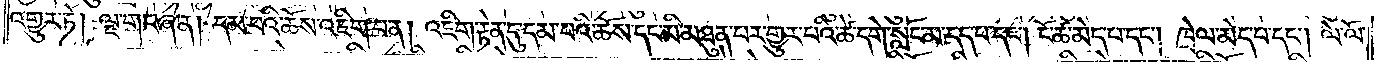འགྱུར་ཏེ། ལྔ་གང་ཞེ་ན། དམ་པའི་ཆོས་འཇིག་པ་ན། འཇིག་རྟེན་དུ་དམ་པའི་ཆོས་དང་མི་མཐུན་པར་གྱུར་པའི་ཚེ་དགེ་སློང་མ་དད་པ་དང༌། ངོ་ཚ་མེད་པ་དང༌། ཁྲེལ་མེད་པ་དང༌། ལེ་ལོ་
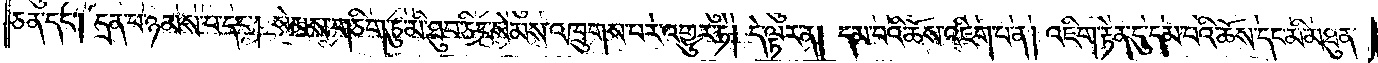ཅན་དང༌། དྲན་པ་ཉམས་པ་དང༌། སེམས་གཅིག་ཏུ་མི་ཐུབ་ཅིང་སེམས་འཁྲུགས་པར་འགྱུར་ཏེ། དེ་ལྟར་ན། དམ་པའི་ཆོས་འཇིག་པ་ན། འཇིག་རྟེན་དུ་དམ་པའི་ཆོས་དང་མི་མཐུན་
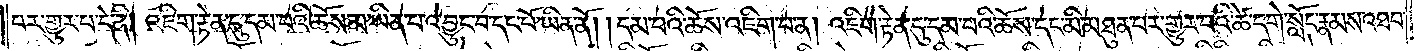བར་གྱུར་པ་དེ་ནི། འཇིག་རྟེན་དུ་དམ་པའི་ཆོས་མ་ཡིན་པ་འབྱུང་བ་དང་པོ་ཡིན་ནོ། །དམ་པའི་ཆོས་འཇིག་པ་ན། འཇིག་རྟེན་དུ་དམ་པའི་ཆོས་དང་མི་མཐུན་པར་གྱུར་པའི་ཚེ་དགེ་སློང་རྣམས་འཐབ་
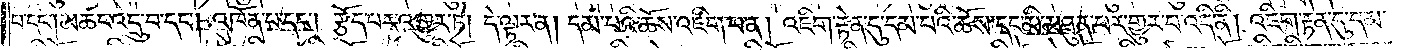པ་དང༌། མཚང་འདྲུ་བ་དང༌། འཁོན་པ་དང༌། རྩོད་པར་འགྱུར་ཏེ། དེ་ལྟར་ན། དམ་པའི་ཆོས་འཇིག་པ་ན། འཇིག་རྟེན་དུ་དམ་པའི་ཆོས་དང་མི་མཐུན་པར་གྱུར་བ་འདི་ནི། འཇིག་རྟེན་དུ་དམ་
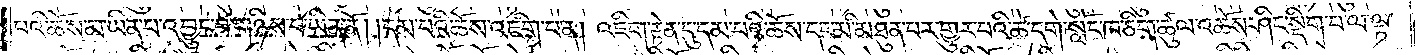པའི་ཆོས་མ་ཡིན་པ་འབྱུང་བ་གཉིས་པ་ཡིན་ནོ། །དམ་པའི་ཆོས་འཇིག་པ་ན། འཇིག་རྟེན་དུ་དམ་པའི་ཆོས་དང་མི་མཐུན་པར་གྱུར་པའི་ཚེ་དགེ་སློང་ཁ་ཅིག་ཚུལ་འཆོས་ཤིང་སྡིག་པ་ལ་ལྟ་
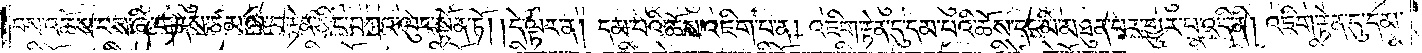བས་འཆོས་པས་ཞི་གནས་ཙམ་ལ་བརྟེན་ཅིང་བཀའ་ལུང་སྟོན་ཏོ། །དེ་ལྟར་ན། དམ་པའི་ཆོས་འཇིག་པ་ན། འཇིག་རྟེན་དུ་དམ་པའི་ཆོས་དང་མི་མཐུན་པར་གྱུར་པ་འདི་ནི། འཇིག་རྟེན་དུ་དམ་
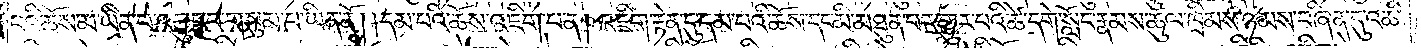པའི་ཆོས་མ་ཡིན་པ་འབྱུང་བ་གསུམ་པ་ཡིན་ནོ། །དམ་པའི་ཆོས་འཇིག་པ་ན། འཇིག་རྟེན་དུ་དམ་པའི་ཆོས་དང་མི་མཐུན་པར་གྱུར་པའི་ཚེ་དགེ་སློང་རྣམས་ཚུལ་ཁྲིམས་ཉམས་བཞིན་དུ་འཆི་
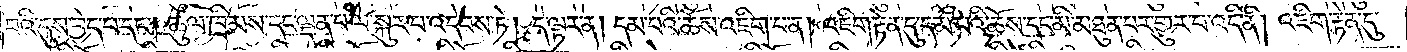བའི་དུས་བྱེད་པ་དང༌། ཚུལ་ཁྲིམས་དང་ལྡན་པ་ལ་སྐུར་བ་འདེབས་ཏེ། དེ་ལྟར་ན། དམ་པའི་ཆོས་འཇིག་པ་ན། འཇིག་རྟེན་དུ་དམ་པའི་ཆོས་དང་མི་མཐུན་པར་གྱུར་པ་འདི་ནི། འཇིག་རྟེན་དུ་
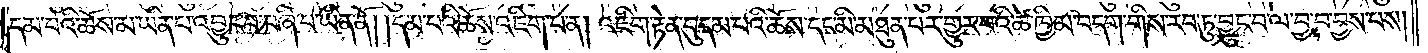དམ་པའི་ཆོས་མ་ཡིན་པ་འབྱུང་བ་བཞི་པ་ཡིན་ནོ། །དམ་པའི་ཆོས་འཇིག་པ་ན། འཇིག་རྟེན་དུ་དམ་པའི་ཆོས་དང་མི་མཐུན་པར་གྱུར་པའི་ཚེ་ཁྱིམ་བདག་གིས་རབ་ཏུ་བྱུང་བ་ལ་བྱ་བ་བྱས་པས།
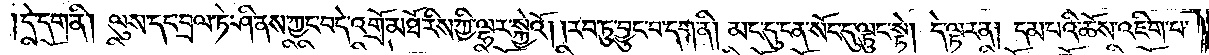དེ་དག་ནི། ལུས་དང་བྲལ་ཏེ་ཤི་ནས་ཀྱང་བདེ་འགྲོ་མཐོ་རིས་ཀྱི་ལྷར་སྐྱེའོ། །རབ་ཏུ་བྱུང་བ་དག་ནི། མང་དུ་ངན་སོང་དུ་ལྟུང་སྟེ། དེ་ལྟར་ན། དམ་པའི་ཆོས་འཇིག་པ་
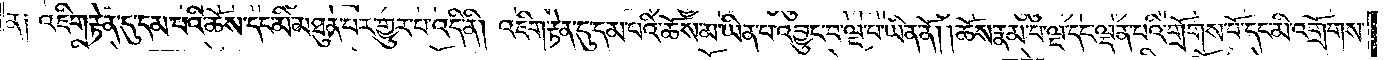ན༑ འཇིག་རྟེན་དུ་དམ་པའི་ཆོས་དང་མི་མཐུན་པར་གྱུར་པ་འདི་ནི། འཇིག་རྟེན་དུ་དམ་པའི་ཆོས་མ་ཡིན་པ་འབྱུང་བ་ལྔ་པ་ཡིན་ནོ། །ཆོས་རྣམ་པ་ལྔ་དང་ལྡན་པའི་གྲོགས་པོ་དང་མི་འགྲོགས་
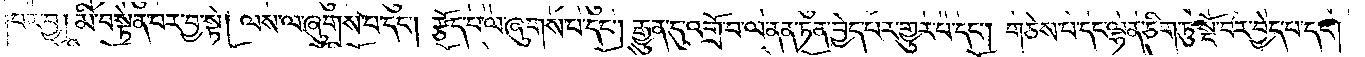པར་བྱ། མི་བསྟེན་པར་བྱ་སྟེ། ལས་ལ་ཞུགས་པ་དང༌། རྩོད་པ་ལ་ཞུགས་པ་དང༌། རྒྱུན་དུ་འགྲོ་བ་ལ་ནན་ཏན་བྱེད་པར་གྱུར་པ་དང༌། གཅེས་པ་དང་ལྷན་ཅིག་ཏུ་སྔོ་བར་བྱེད་པ་དང༌།
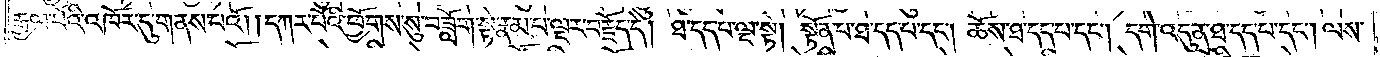རྒྱལ་པོའི་འཁོར་དུ་གནས་པའོ། །དཀར་པོའི་ཕྱོགས་སུ་བཟློག་སྟེ་རྣམ་པ་ལྔར་བརྗོད་དེ། ཐ་དད་པ་ལྔ་སྟེ། སྟོན་པ་ཐ་དད་པ་དང༌། ཆོས་ཐ་དད་པ་དང༌། དགེ་འདུན་ཐ་དད་པ་དང༌། ལས་
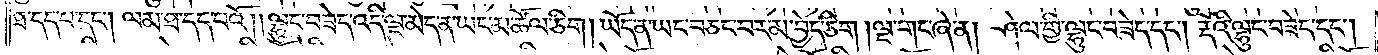ཐ་དད་པ་དང༌། ལམ་ཐ་དད་པའོ། །ལྷུང་བཟེད་འདི་ལྔ་མེད་ན་ཡང་མ་ཚོལ་ཅིག །ཡོད་ན་ཡང་བཅང་བར་མ་བྱེད་ཅིག །ལྔ་གང་ཞེ་ན། ཤེལ་གྱི་ལྷུང་བཟེད་དང༌། རྡོའི་ལྷུང་བཟེད་དང༌།
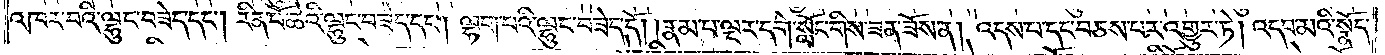འཁར་བའི་ལྷུང་བཟེད་དང༌། རིན་པོ་ཆེའི་ལྷུང་བཟེད་དོ། །ལྷག་པའི་ལྷུང་བཟེད་དོ། །རྣམ་པ་ལྔར་དགེ་སློང་གིས་ཟན་ཟོས་ན། འདས་པ་དང་བཅས་པར་འགྱུར་ཏེ། འདབ་མའི་སྣོད་
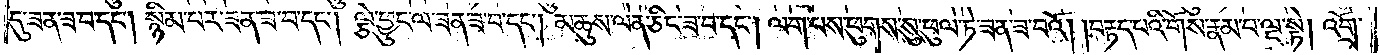དུ་ཟན་ཟ་བ་དང༌། སྙིམ་པར་ཟན་ཟ་བ་དང༌། ལྕེ་ཕྱུང་ལ་ཟན་ཟ་བ་དང༌། མཆུས་ལེན་ཅིང་ཟ་བ་དང༌། ལག་པས་ཕུགས་སུ་ཕུལ་ཏེ་ཟན་ཟ་བའོ། །བརྟད་པའི་གོས་རྣམ་པ་ལྔ་སྟེ། འགྲོ་
